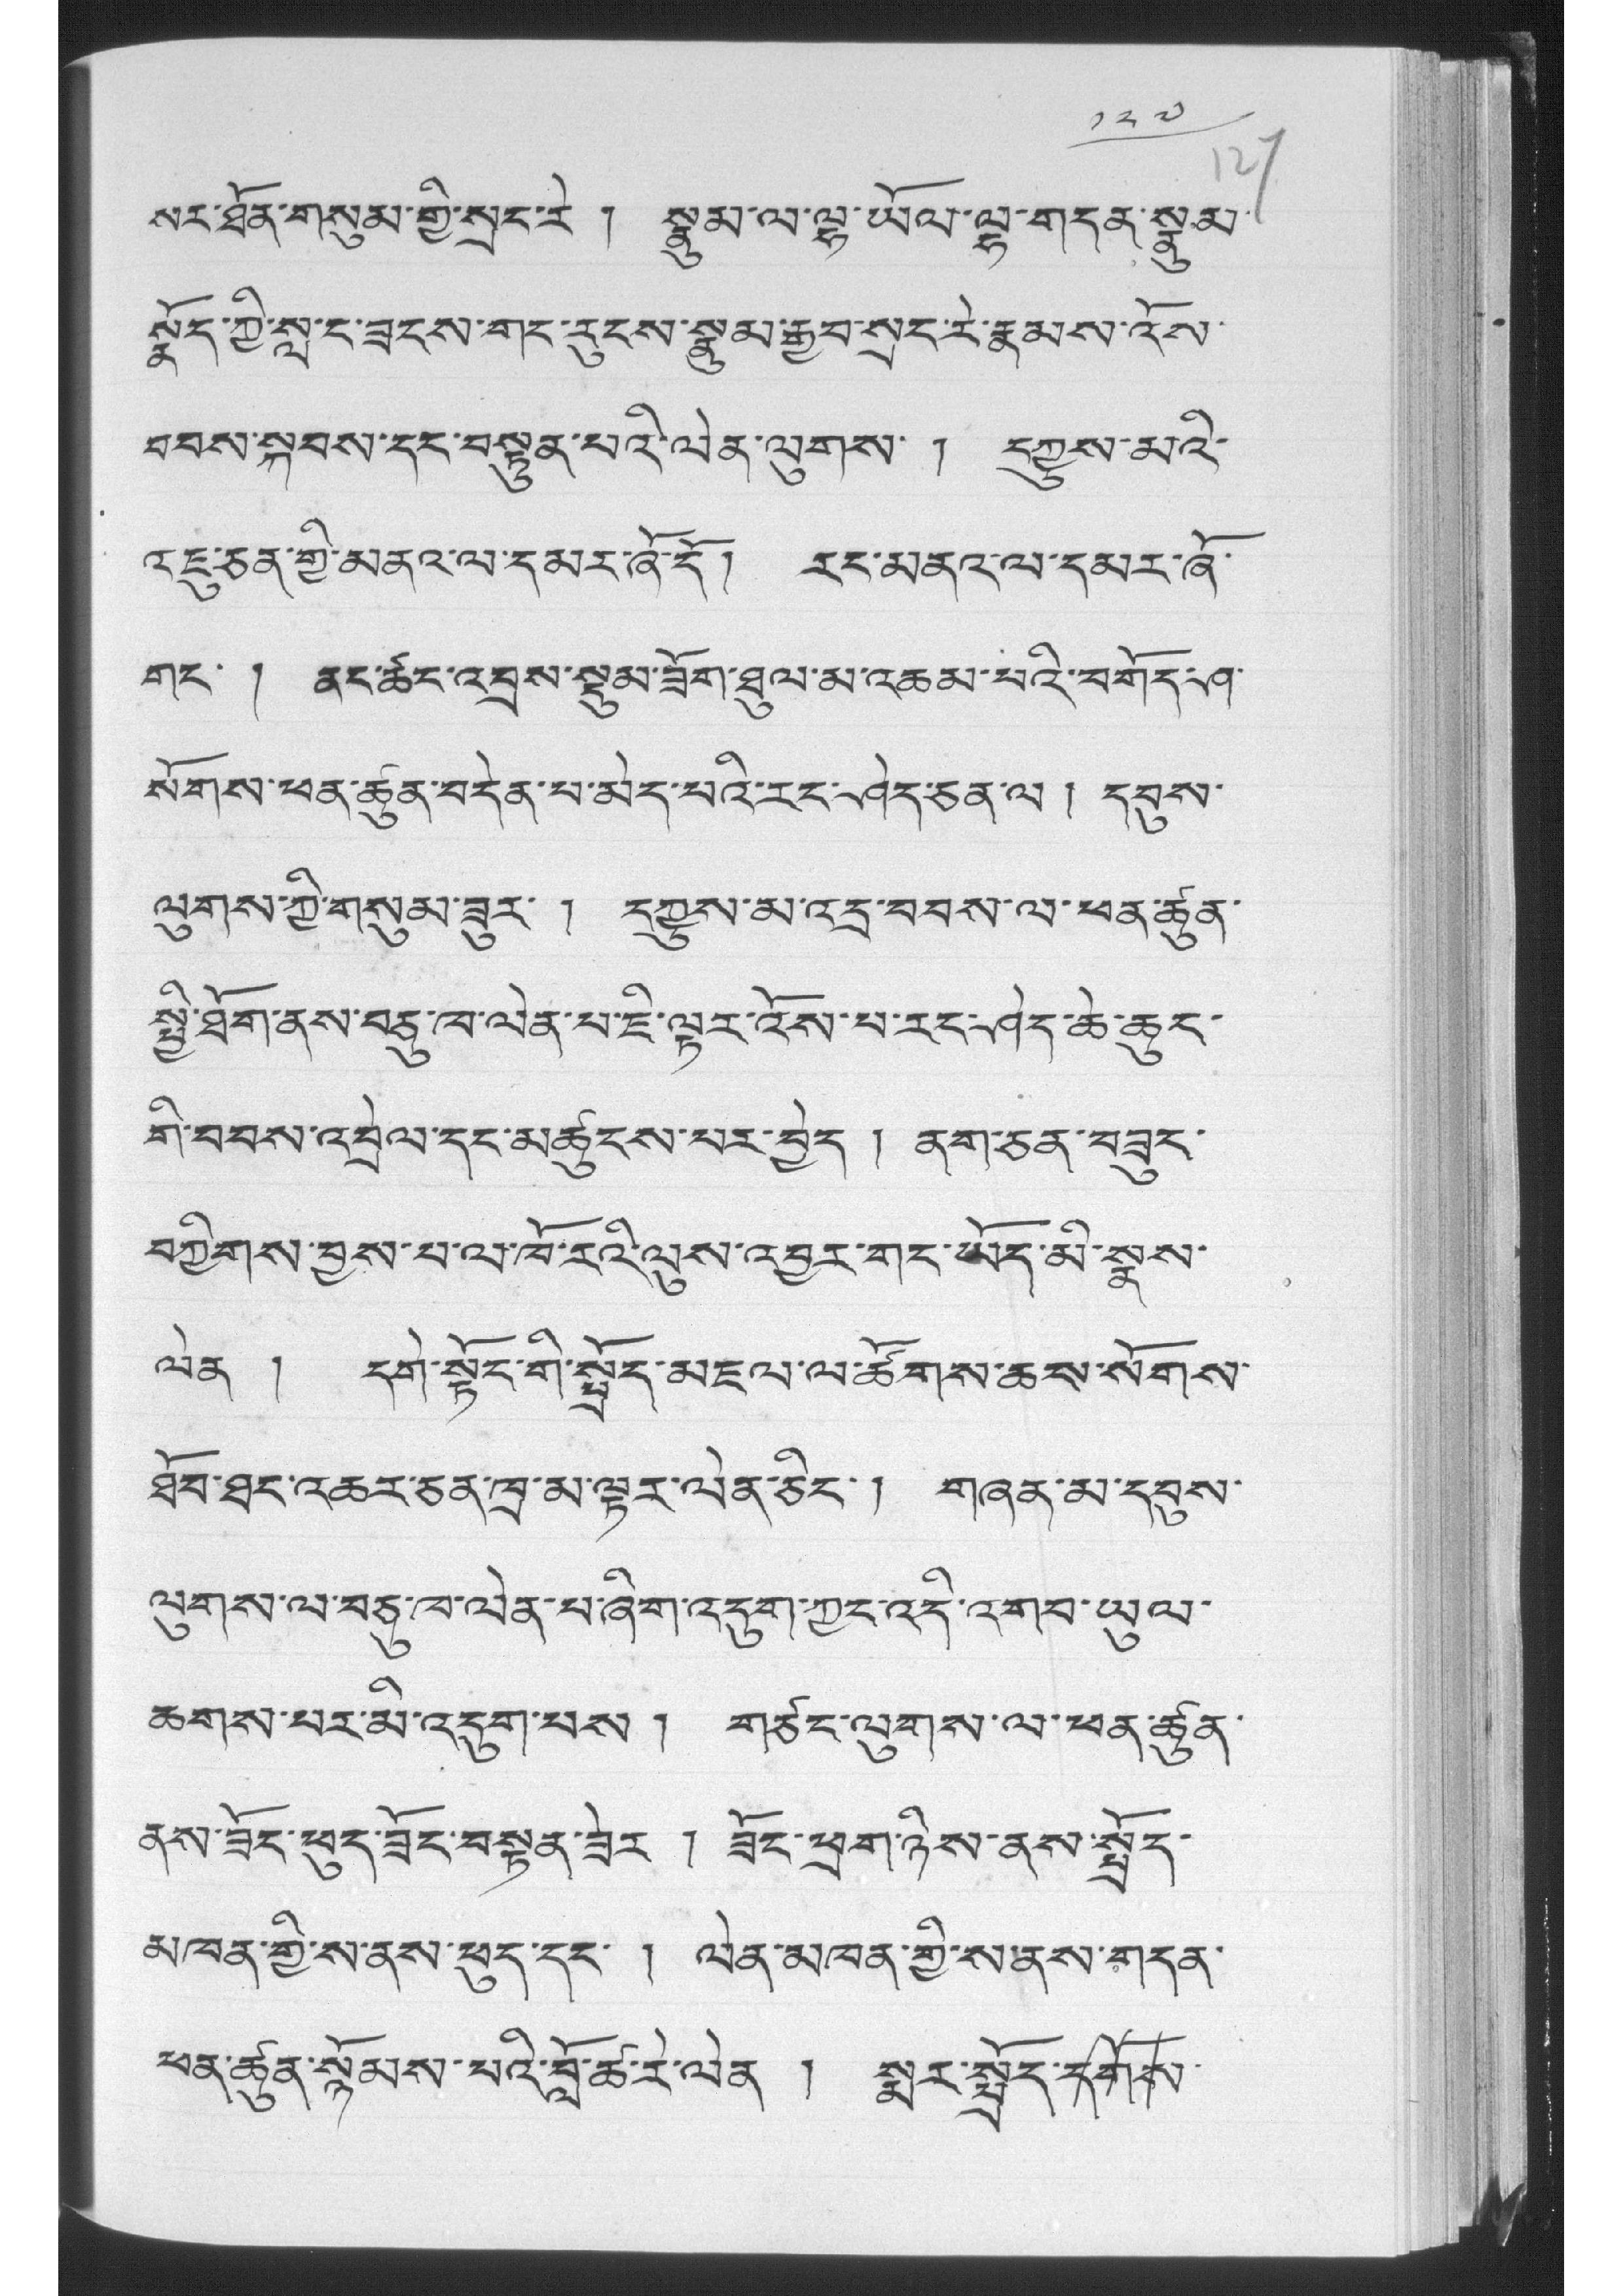༡༢༧
སར་ཐོན་གསུམ་གྱི་སྲང་རེ ། སྣུམ་ལ་ལྷ་ཡོལ་ལྷ་གདན་སྣུམ་
སྣོད་ཀྱི་སླ་ང་ཟངས་གང་རུངས་སྣུམ་རྒྱབ་སྲང་རེ་རྣམས་འོས་
བབས་སྐབས་དང་བསྟུན་པའི་ལེན་ལུགས་ ། དཀྱུས་མའི་
འཇུ་ཅན་གྱི་མནའ་ལ་དམར་ཞོ་དོ། རང་མནའ་ལ་དམར་ཞོ་
གང་ ། ནང་ཚང་འབྲས་སྡུམ་ཟོག་ཐུལ་མ་འཆམ་པའི་བགོད་ཤ་
སོགས་ཕན་ཚུན་བདེན་པ་མེད་པའི་རང་ཤེད་ཅན་ལ ། དབུས་
ལུགས་ཀྱི་གསུམ་ཟུར་ ། དཀྱུས་མི་འདྲ་བབས་ལ་ཕན་ཚུན་
སྤྱི་ཐོག་ནས་བཅུ་ཁ་ལེན་པ་ཇི་ལྟར་འོས་པ་རང་ཤེད་ཆེ་ཆུང་
གི་བབས་འབྲེལ་དང་མཚུངས་པར་བྱེད ། ནག་ཅན་བཟུང་
བཀྱིགས་བྱས་པ་ལ་ཁོ་རའི་ལུས་འབྱར་གང་ཡོད་མི་སྣས་
ལེན ། དགེ་སྟོང་གི་སྤྲོད་མཇལ་ལ་ཚོགས་ཆས་སོགས་
ཐོབ་ཐང་འཆར་ཅན་ཁྲ་མ་ལྟར་ལེན་ཅིང་། གཞན་མ་དབུས་
ལུགས་ལ་བཅུ་ཁ་ལེན་པ་ཞིག་འདུག་ཀྱང་འདི་འགབ་ཡུལ་
ཆགས་པར་མི་འདུག་པས ། གཙང་ལུགས་ལ་ཕན་ཚུན་
ནས་ཟོང་ཕུད་ཟོང་བསྟན་ཟེར ། ཟོང་ཕྲག་ཉིས་ནས་སྤྲོད་
མཁན་གྱི་ས་ནས་ཕུད་དང་ ། ལེན་མཁན་གྱི་ས་ནས་གདན་
ཕན་ཚུན་སྙོམས་པའི་བློ་ཚ་རེ་ལེན ། སྨར་སྤྲོད་དགོས་
